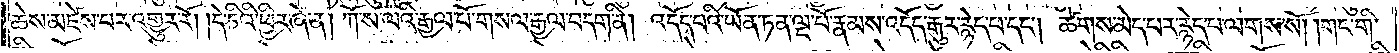ཆེས་མཛེས་པར་འགྱུར་རོ། །དེ་ཅིའི་ཕྱིར་ཞེ་ན། ཀོ་ས་ལའི་རྒྱལ་པོ་གསལ་རྒྱལ་བདག་ནི། འདོད་པའི་ཡོན་ཏན་ལྔ་པོ་རྣམས་འདོད་རྒུར་རྙེད་པ་དང༌། ཚེགས་མེད་པར་རྙེད་པ་ལགས་སོ། །གང་གི་
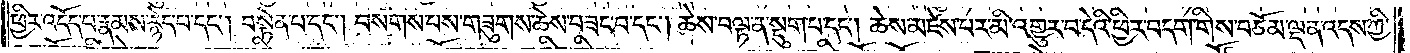ཕྱིར་འདོད་པ་རྣམས་རྙེད་པ་དང༌། བསྟེན་པ་དང༌། བསགས་པས་གཟུགས་ཆེས་བཟང་བ་དང༌། ཆེས་བལྟ་ན་སྡུག་པ་དང༌། ཆེས་མཛེས་པར་མི་འགྱུར་བ་དེའི་ཕྱིར་བདག་གིས་བཅོམ་ལྡན་འདས་ཀྱི་
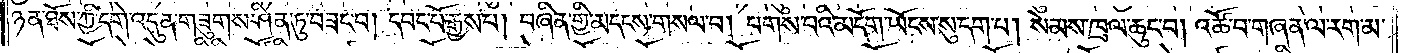ཉན་ཐོས་ཀྱི་དགེ་འདུན་གཟུགས་ཤིན་ཏུ་བཟང་བ། དབང་པོ་རྒྱས་པ། བཞིན་གྱི་མདངས་གསལ་བ། པགས་པའི་མདོག་ཡོངས་སུ་དག་པ། སེམས་ཁྲལ་ཆུང་བ། འཚོ་བ་གཞན་ལ་རག་མ་
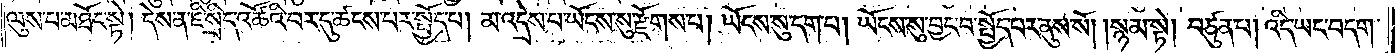ལུས་པ་མཐོང་སྟེ། དེས་ན་ཇི་སྲིད་འཚོའི་བར་དུ་ཚངས་པར་སྤྱོད་པ། མ་འདྲེས་པ་ཡོངས་སུ་རྫོགས་པ། ཡོངས་སུ་དག་པ། ཡོངས་སུ་བྱང་བ་སྤྱོད་པར་ནུས་སོ། །སྙམ་སྟེ། བཙུན་པ། འདི་ཡང་བདག་
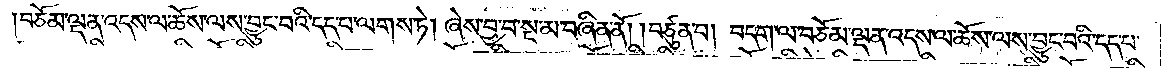བཅོམ་ལྡན་འདས་ལ་ཆོས་ལས་བྱུང་བའི་དད་པ་ལགས་ཏེ། ཞེས་བྱ་བ་སྔ་མ་བཞིན་ནོ། །བཙུན་པ། བདག་ལ་བཅོམ་ལྡན་འདས་ལ་ཆོས་ལས་བྱུང་བའི་དད་པ་
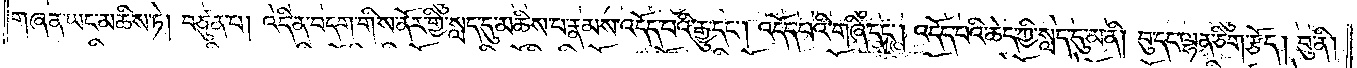གཞན་ཡང་མཆིས་ཏེ། བཙུན་པ། འདི་ན་བདག་གིས་ནོར་གྱི་སླད་དུ་མཆིས་པ་རྣམས་འདོད་པའི་རྒྱུ་དང༌། འདོད་པའི་གཞི་དང༌། འདོད་པའི་ཆེད་ཀྱི་སླད་དུ་མ་ནི། བུ་དང་ལྷན་ཅིག་རྩོད། བུ་ནི།
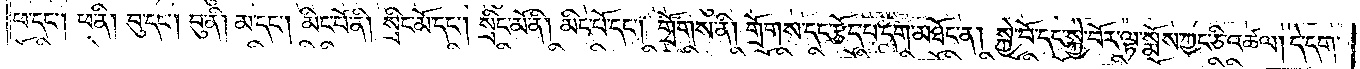ཕ་དང༌། ཕ་ནི། བུ་དང༌། བུ་ནི། མ་དང༌། མིང་པོ་ནི། སྲིང་མོ་དང༌། སྲིང་མོ་ནི། མིང་པོ་དང༌། གྲོགས་ནི། གྲོགས་དང་རྩོད་པ་དག་མཐོང་ན། སྐྱེ་བོ་དང་སྐྱེ་བོར་ལྟ་སྨོས་ཀྱང་ཅི་འཚལ། དེ་དག་
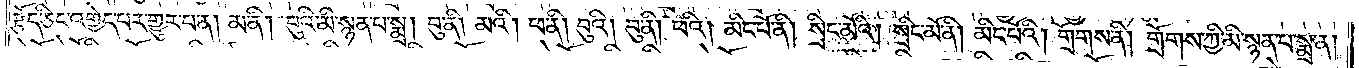རྩོད་ཅིང་འགྱེད་པར་གྱུར་པ་ན། མ་ནི། བུའི་མི་སྙན་པ་སྨྲ། བུ་ནི། མའི། ཕ་ནི། བུའི། བུ་ནི། ཕའི། མིང་པོ་ནི། སྲིང་མོའི། སྲིང་མོ་ནི། མིང་པོའི། གྲོགས་ནི། གྲོགས་ཀྱི་མི་སྙན་པ་སྨྲ་ན།
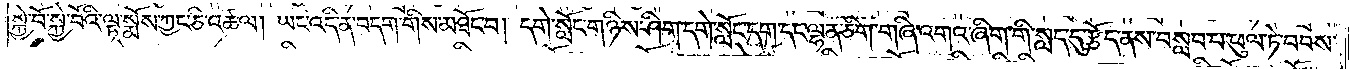སྐྱེ་བོ་སྐྱེ་བོའི་ལྟ་སྨོས་ཀྱང་ཅི་འཚལ། ཡང་འདི་ན་བདག་གིས་མཐོང་བ། དགེ་སློང་གཉིས་ཤིག་དགེ་སློང་དག་དང་ལྷན་ཅིག་གཞི་འགའ་ཞིག་གི་སླད་དུ་རྩོད་ནས་བསླབ་པ་ཕུལ་ཏེ་བབས་
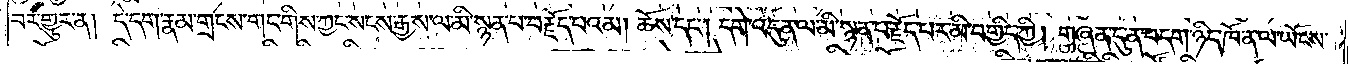བར་གྱུར་ན། དེ་དག་རྣམ་གྲངས་གང་གིས་ཀྱང་སངས་རྒྱས་ལ་མི་སྙན་པ་བརྗོད་པའམ། ཆོས་དང༌། དགེ་འདུན་ལ་མི་སྙན་པ་བརྗོད་པར་མི་བགྱིད་ཀྱི། གཞན་དུ་ན་བདག་ཉིད་ཁོ་ན་ལ་ཡོངས་
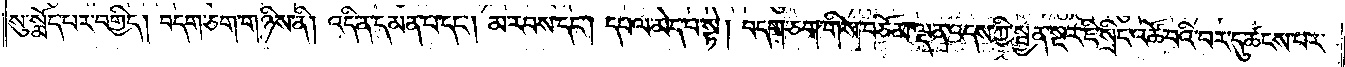སུ་སྨོད་པར་བགྱིད། བདག་ཅག་གཉིས་ནི། འདི་ན་དམན་པ་དང༌། མ་རབས་དང༌། དཔལ་མེད་པ་སྟེ། བདག་ཅག་གིས་བཅོམ་ལྡན་འདས་ཀྱི་སྤྱན་སྔར་ཇི་སྲིད་འཚོ་བའི་བར་དུ་ཚངས་པར་
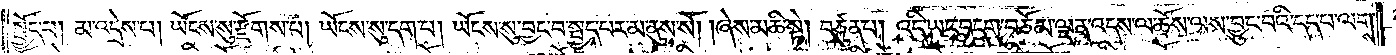སྤྱོད་པ། མ་འདྲེས་པ། ཡོངས་སུ་རྫོགས་པ། ཡོངས་སུ་དག་པ། ཡོངས་སུ་བྱང་བ་སྤྱད་པར་མ་ནུས་སོ། །ཞེས་མཆི་སྟེ། བཙུན་པ། འདི་ཡང་བདག་བཅོམ་ལྡན་འདས་ལ་ཆོས་ལས་བྱུང་བའི་དད་པ་ལགས་
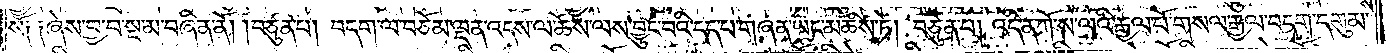སོ༑ ༑ཞེས་བྱ་བ་སྔ་མ་བཞིན་ནོ། །བཙུན་པ། བདག་ལ་བཅོམ་ལྡན་འདས་ལ་ཆོས་ལས་བྱུང་བའི་དད་པ་གཞན་ཡང་མཆིས་ཏེ། བཙུན་པ། འདི་ན་ཀོ་ས་ལའི་རྒྱལ་པོ་གསལ་རྒྱལ་བདག་དགུ་མ་
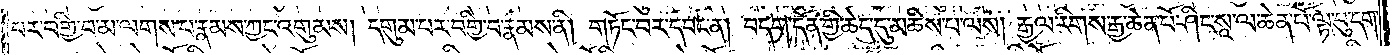པར་བགྱི་བ་མ་ལགས་པ་རྣམས་ཀྱང་འགུམས། དགུམ་པར་བགྱི་བ་རྣམས་ནི། གཏོང་བར་དབང་ན། བདག་དོན་གྱི་ཆེད་དུ་མཆིས་པ་ལས། རྒྱལ་རིགས་རྒྱ་ཆེན་པོ་ཤིང་སཱ་ལ་ཆེན་པོ་ལྟ་བུ་དག་
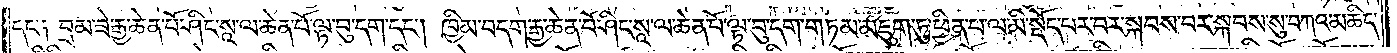དང་༑ བྲམ་ཟེ་རྒྱ་ཆེན་པོ་ཤིང་སཱ་ལ་ཆེན་པོ་ལྟ་བུ་དག་དང༌། ཁྱིམ་བདག་རྒྱ་ཆེན་པོ་ཤིང་སཱ་ལ་ཆེན་པོ་ལྟ་བུ་དག་གཏམ་མཇུག་ཏུ་ཕྱིན་པ་ལ་མི་སྡོད་པར་བར་སྐབས་བར་སྐབས་སུ་བཀའ་མཆིད་
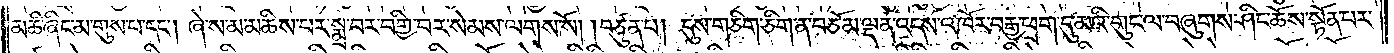མཆི་ཞིང་མ་གུས་པ་དང༌། ཞེ་ས་མ་མཆིས་པར་སྨྲ་བར་བགྱི་བར་སེམས་ལགས་སོ། །བཙུན་པ། དུས་གཅིག་ཅིག་ན་བཅོམ་ལྡན་འདས་འཁོར་བརྒྱ་ཕྲག་དུ་མའི་གུང་ལ་བཞུགས་ཤིང་ཆོས་སྟོན་པར་
